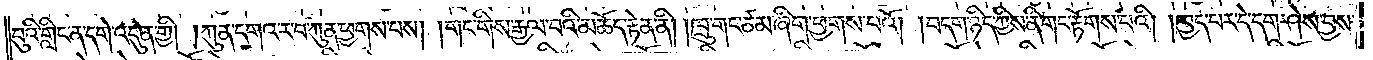བུའི་གླིང་ན་དགེ་འདུན་གྱི། །ཀུན་དགའ་ར་བ་ཀུན་ཕྱགས་པས། །གང་གིས་རྒྱལ་བའི་མཆོད་རྟེན་ནི། །ཁྲུ་གང་ཙམ་ཞིག་ཕྱགས་པའོ། །བདག་ཉིད་ཀྱིས་ནི་གང་རྟོགས་པའི། །ཁྱད་པར་དེ་དག་ཤེས་བྱས་
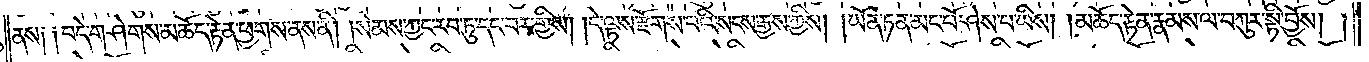ནས༑ ༑བདེ་གཤེགས་མཆོད་རྟེན་ཕྱགས་ནས་ནི། །སེམས་ཀྱང་རབ་ཏུ་དང་བར་གྱིས། །དེ་ལྟས་རྫོགས་པའི་སངས་རྒྱས་ཀྱིས། །ཡོན་ཏན་མང་པོ་ཤེས་པ་ཡིས། །མཆོད་རྟེན་རྣམས་ལ་བཀུར་སྟི་བྱོས། །
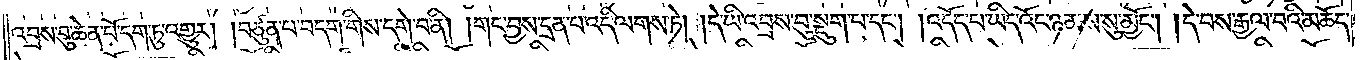འབྲས་བུ་ཆེན་པོ་དག་ཏུ་འགྱུར། །བཙུན་པ་བདག་གིས་དགེ་བ་ནི། །གང་བྱས་དྲན་པ་འདི་ལགས་ཏེ། །དེ་ཡི་འབྲས་བུ་སྡུག་པ་དང༌། །འདོད་པ་ཡིད་འོང་ཉམས་སུ་མྱོང༌། །དེ་བས་རྒྱལ་བའི་མཆོད་
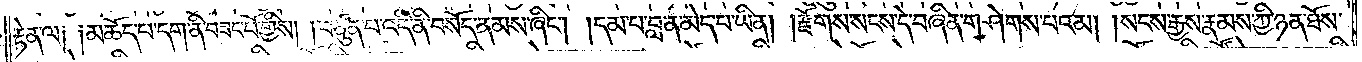རྟེན་ལ༑ ༑མཆོད་པ་དག་ནི་བཟང་པོ་གྱིས། །བཙུན་པ་འདི་ནི་བསོད་རྣམས་ཞིང༌། །དམ་པ་བླ་ན་མེད་པ་ཡིན། །རྫོགས་སངས་དེ་བཞིན་གཤེགས་པའམ། །སངས་རྒྱས་རྣམས་ཀྱི་ཉན་ཐོས་
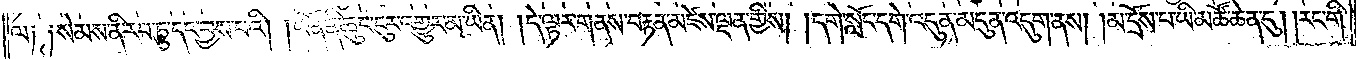ལ༑ ༑སེམས་ནི་རབ་ཏུ་དང་བྱས་པའི། །ཡོན་ནི་ཆུང་ངུར་འགྱུར་མ་ཡིན། །དེ་ལྟར་གནས་བརྟན་མཛེས་ལྡན་གྱིས། །དགེ་སློང་དགེ་འདུན་མདུན་འདུག་ནས། །མ་དྲོས་པ་ཡི་མཚོ་ཆེན་དུ། །རང་གི་
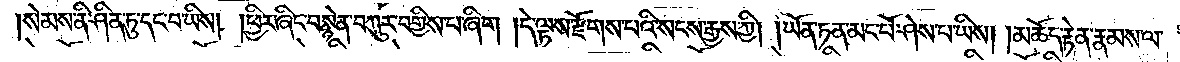སེམས་ནི་ཤིན་ཏུ་དང་བ་ཡིས། །ཕྱིར་ཞིང་བསྙེན་བཀུར་བགྱིས་པ་ཞིག །དེ་ལྟས་རྫོགས་པའི་སངས་རྒྱས་ཀྱི། །ཡོན་ཏན་མང་པོ་ཤེས་པ་ཡིས། །མཆོད་རྟེན་རྣམས་ལ་
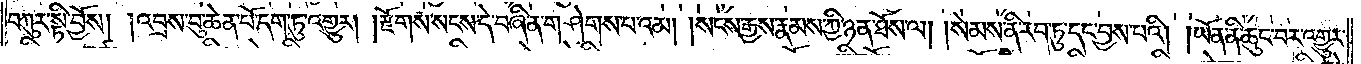བཀུར་སྟི་བྱོས། །འབྲས་བུ་ཆེན་པོ་དག་ཏུ་འགྱུར། །རྫོགས་སངས་དེ་བཞིན་གཤེགས་པའམ། །སངས་རྒྱས་རྣམས་ཀྱི་ཉན་ཐོས་ལ། །སེམས་ནི་རབ་ཏུ་དང་བྱས་པའི། །ཡོན་ནི་ཆུང་བར་འགྱུར་
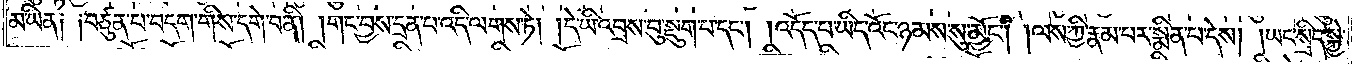མ་ཡིན༑ ༑བཙུན་པ་བདག་གིས་དགེ་བ་ནི། །གང་བྱས་དྲན་པ་འདི་ལགས་ཏེ། །དེ་ཡི་འབྲས་བུ་སྡུག་པ་དང༌། །འདོད་པ་ཡིད་འོང་ཉམས་སུ་མྱོང༌། །ལས་ཀྱི་རྣམ་པར་སྨིན་པ་དེས། །ཡང་སྲིད་སྐྱེ་
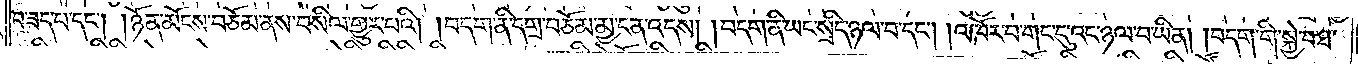པ་ཟད་པ་དང༌། །ཉོན་མོངས་བཅོམ་ནས་བསིལ་གྱུར་པའི། །བདག་ནི་དགྲ་བཅོམ་མྱ་ངན་འདས། །བདག་ནི་ཡང་སྲིད་ཉལ་བ་དང༌། །འཁོར་བ་གང་དུ་འང་ཉལ་བ་ཡིན། །བདག་གི་སྐྱེ་བ་ཐ་
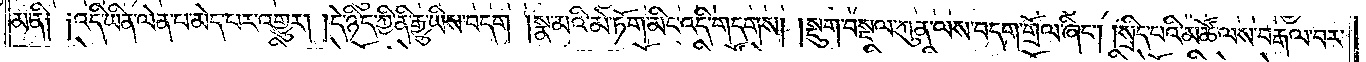མ་ནི༑ ༑འདི་ཡིན་ལེན་པ་མེད་པར་འགྱུར། །དེ་ཉིད་ཀྱི་ནི་རྒྱུ་ཡིས་བདག །སྣ་མའི་མེ་ཏོག་མིང་འདི་གདགས། །སྡུག་བསྔལ་ཀུན་ལས་བདག་གྲོལ་ཞིང༌། །སྲིད་པའི་མཚོ་ལས་བརྒལ་བར་
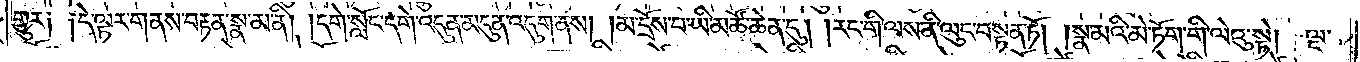གྱུར༑ ༑དེ་ལྟར་གནས་བརྟན་སྣ་མ་ནི། །དགེ་སློང་དགེ་འདུན་མདུན་འདུག་ནས། །མ་དྲོས་པ་ཡི་མཚོ་ཆེན་དུ། །རང་གི་ལས་ནི་ལུང་བསྟན་ཏོ། །སྣ་མའི་མེ་ཏོག་གི་ལེའུ་སྟེ། ལྔ་
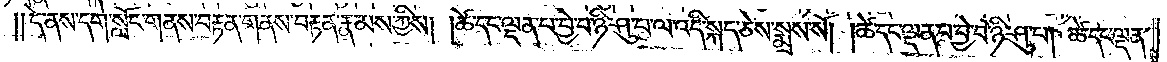དེ་ནས་དགེ་སློང་གནས་བརྟན་གནས་བརྟན་རྣམས་ཀྱིས། །ཚེ་དང་ལྡན་པ་བྱེ་བ་ཉི་ཤུ་པ་ལ་འདི་སྐད་ཅེས་སྨྲས་སོ། །ཚེ་དང་ལྡན་པ་བྱེ་བ་ཉི་ཤུ་པ། །ཚེ་དང་ལྡན་
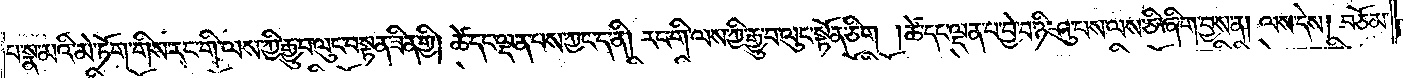པ་སྣ་མའི་མེ་ཏོག་གིས་རང་གི་ལས་ཀྱི་རྒྱུ་བ་ལུང་བསྟན་ཟིན་གྱི། ཚེ་དང་ལྡན་པས་ཀྱང་ད་ནི། རང་གི་ལས་ཀྱི་རྒྱུ་བ་ལུང་སྟོན་ཅིག །ཚེ་དང་ལྡན་པ་བྱེ་བ་ཉི་ཤུ་པས་ལས་ཅི་ཞིག་བྱས་ན། ལས་དེས། བཅོམ་
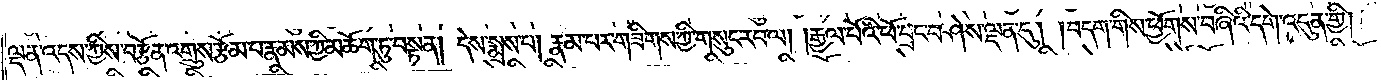ལྡན་འདས་ཀྱིས་བརྩོན་འགྲུས་རྩོམ་པ་རྣམས་ཀྱི་མཆོག་ཏུ་བསྟན། དེས་སྨྲས་པ། རྣམ་པར་གཟིགས་ཀྱི་གསུང་རབ་ལ། །རྒྱལ་པོའི་ཕོ་བྲང་བཤེས་ལྡན་དུ། །བདག་གིས་ཕྱོགས་བཞིའི་དགེ་འདུན་གྱི། །
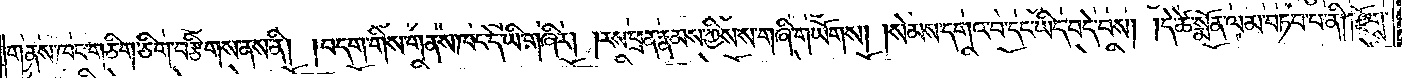གནས་ཁང་གཅིག་ཅིག་བརྩིགས་ནས་ནི། །བདག་གིས་གནས་ཁང་དེ་ཡི་གཞིར། །རས་ཕྲན་རྣམས་ཀྱིས་ས་གཞི་གཡོགས། །སེམས་དགའ་བ་དང་ཡིད་བདེ་བས། །དེ་ཚེ་སྨོན་ལམ་བཏབ་པ་ནི། །རྫོགས་
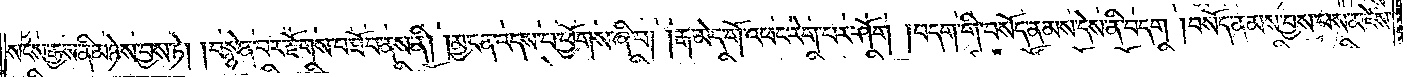སངས་རྒྱས་ནི་མཉེས་བྱས་ཏེ། །བསྙེན་པར་རྫོགས་པ་ཐོབ་ནས་ནི། །མྱ་ངན་འདས་པ་ཕྱོགས་ཞི་བ། །རྒ་མེད་གོ་འཕང་རེག་པར་ཤོག །བདག་གི་བསོད་ནམས་དེས་ནི་བདག །བསོད་ནམས་བྱས་པས་མཛེས་
